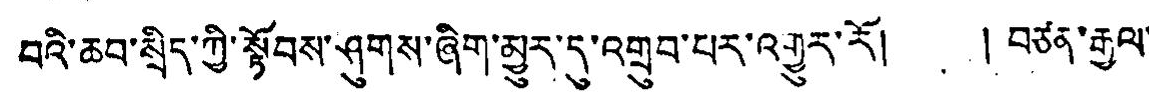བའི་ཆབ་སྲིད་ཀྱི་སྟོབས་ཤུགས་ཞིག་མྱུར་དུ་འགྲུབ་པར་འགྱུར་རོ། ། བཙན་རྒྱལ་
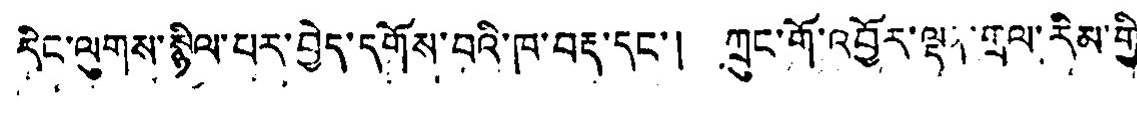རིང་ལུགས་སྙིལ་པར་བྱེད་དགོས་བའི་ཁ་བརྡ་དང་། ཀྲུང་གོ་འབྱོར་ལྡན་གྲལ་རིམ་གྱི་
